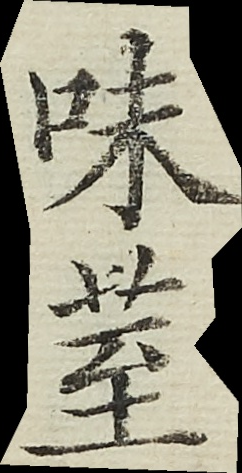味荎
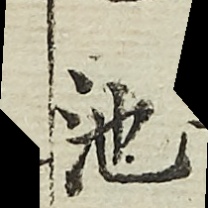池
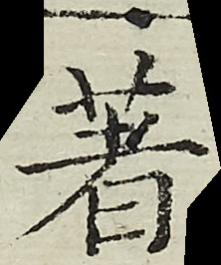著
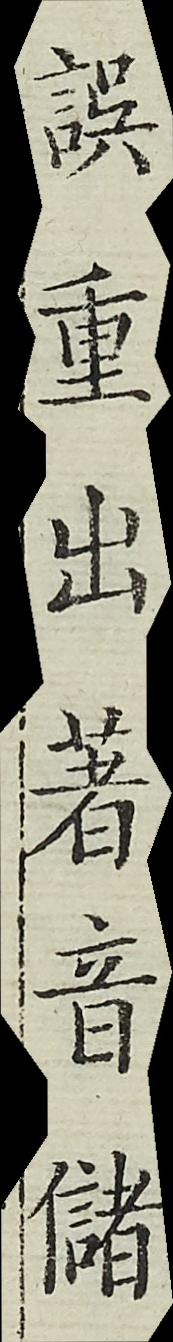誤重出著音儲
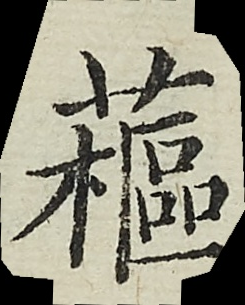藲
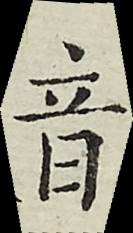音
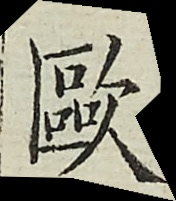歐
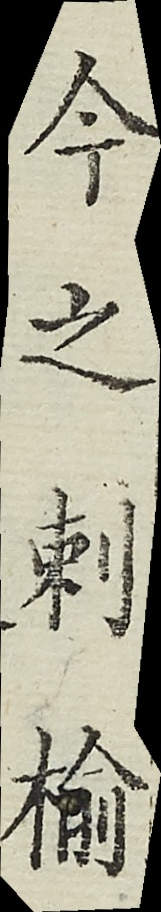今之刺榆
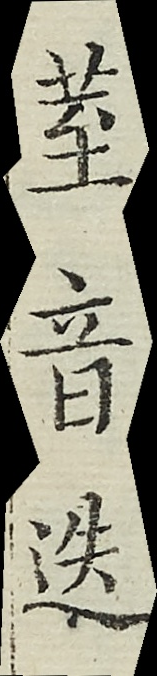荎音迭
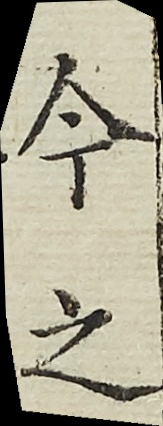今之
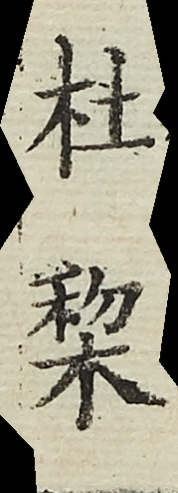杜棃
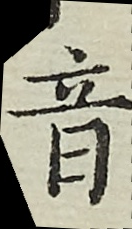音
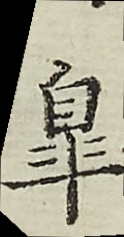皋
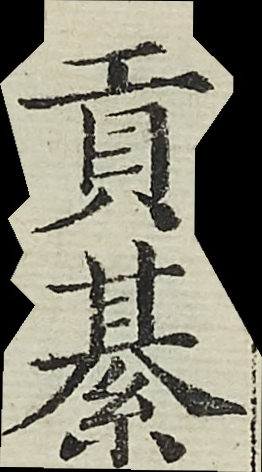貢綦
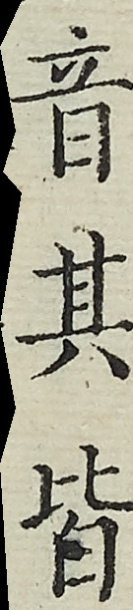音其皆
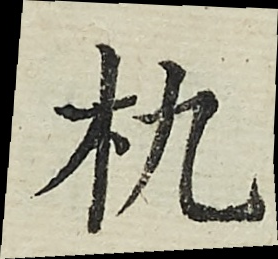朹
